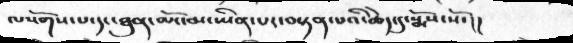ལསོགས་པ་དང་ཐུན་མོང་མ་ཡིན་པར་བསྟན་པའི་ཆེད་དུ་སྨོས་སོ་།།
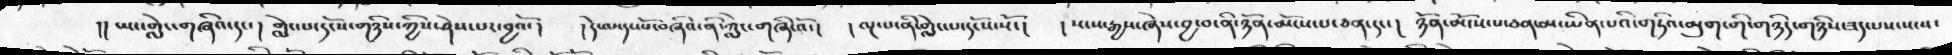།། ཡང་གླེང་གཞིའ་དང་།  གླེང་པ་དངོས་གཉིས་ཀྱིས་ཤེས་པར་བྱའོ་།   །དེ་ལ་དང་པོ་བཞིའ་ནི་ཀླེང་གཞི་འོ་།   ། ལྔ་པ་ནི་གླེང་པ་དངོས་སོ་།   ། སངས་རྒྱས་ཞེས་བྱ་བ་ནི་ཉོན་མོངས་པ་ཅན་དང་།  ཉོན་མོངས་པ་ཅན་མ་ཡིན་པའི་གཏིའ་མུག་གི་གཉིད་གཉིས་ཟད་པས་སངས་
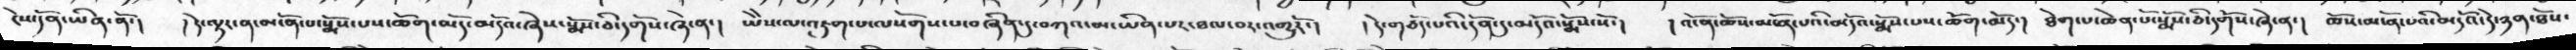ངེས་དོན་ཡིན་ནོ་།  །དེ་ལྟར་ན་མངོན་པ་སྨོས་པས་ཆོག་མོད་མདོའ་ཞེས་སྨོས་ཅི་དགོས་ཞེ་ན་།   ཡཻས་ལ་འཇུག་པ་ལསོགས་པ་བཞིན་དུ་བཀའ་མ་ཡིན་པར་ཐལ་བར་འགྱུརོ་།  །དེ་གཅོད་པའི་དོན་དུ་མདོའ་སྨོས་སོ་།  །འོ་ན་ཆོས་མངོན་པའི་མདོའ་སྨོས་པས་ཆོག་མོད་།  ཐེག་པ་ཆེན་པོ་སྨོས་ཅི་དགོས་ཞེ་ན་།  ཆོས་མངོན་པའི་མདོའ་དེ་ཉན་ཐོས་
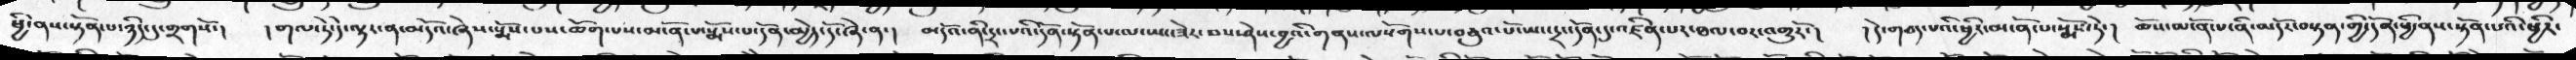ཕྱི་ནས་སྟོན་པ་ཉིད་དུ་གྲགསོ་།  །གལ་ཏེ་དེ་ལྟར་ན་མདོའ་ཞེས་སྨོས་པས་ཆོག་པས་མངོན་པ་སྨོས་པ་དོན་མྱེད་དོ་ཞེ་ན་།  མདོའ་ནི་དྲང་པའི་དོན་སྟོན་པ་ལ་ཡང་ཟེར་བས་ཤེས་བྱའི་གནས་ལསོགས་པ་བཅུའ་པོ་ཡང་དྲང་དོན་དུ་འཛིན་པར་ཐལ་བར་འགྱུརོ་།  །དེ་གཅད་པའི་ཕྱིར་མངོན་་པ་སྨོས་ཏེ་།  ཆོས་མངོན་པ་ནི་མདོར་བསྟན་གྱི་དོན་ཕྱི་ནས་སྟོན་པའི་ཕྱིར་
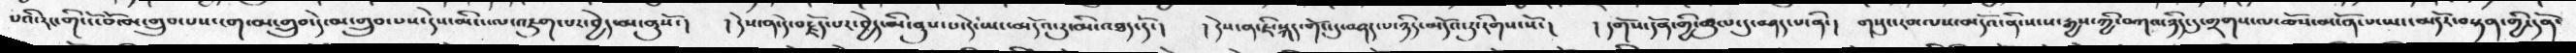པའི་རང་གི་ངོ་བོས་མ་གྲུབ་པས་ངག་མ་གྲུབ་དེ་མ་གྲུབ་པས་དེས་མིང་ལ་འཇུག་པར་བྱེད་མ་ནུསོ་།   །དེས་ན་དེ་བརྗོད་པར་བྱེད་མི་ནུས་པ་དེར་ཡང་མདོའ་རུ་མི་འཐད་དོ་།   །ེདས་ན་ཇི་སྐད་གོང་དུ་བཤད་པ་ཉིད་མདོའ་རུ་རིགས་སོ་།  །དགོས་དོན་གྱི་ཚུལ་དུ་བཤད་པ་ནི་།  །གསུང་རབ་ལས་མདོའ་ནི་སངས་རྒྱས་ཀྱི་བཀའ་ཉིད་དུ་གྲགས་ལ་ཆོས་མངོན་པ་ཡང་མདོར་བསྟན་གྱི་དོན་
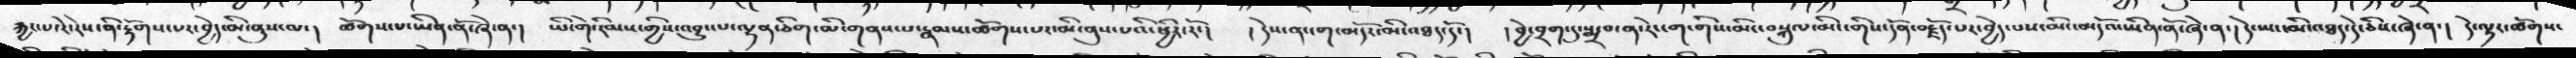རྐྱང་པ་རེ་རེས་ནི་རྟོགས་པར་བྱེད་མི་ནུས་ལ་།  ཚོགས་པ་ཡིན་ནོ་ཞེ་ན་།  ཡི་གེ་རིམས་གྱིས་འབྱུང་པ་ལྷན་ཅིག་མི་གནས་པ་རྣམས་ཚོགས་པར་མི་ནུས་པའི་ཕྱིར་རོ་།   ། དེས་ན་ངག་མདོར་མི་འཐད་དོ་།   །བྱེ་བྲག་དུ་སྨྲ་བ་ན་རེ་ངག་གིས་མིང་བསྐུལ་མིང་གིས་དོན་བརྗོད་པར་བྱེད་པས་མིང་མདོའ་ཡིན་ནོ་ཞེ་ན་།  དེ་ཡང་མི་འཐད་དེ་ཅིས་ཞེ་ན་།  དེ་ལྟར་ཚོགས་
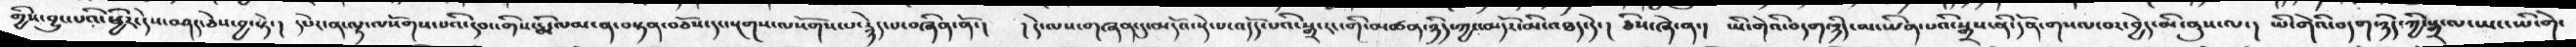གྱིས་བྱུང་པའི་ཕྱིར་དེས་བཤད་ཅེས་བྱ་སྟེ་།  དཔེར་ན་ལྟ་ལསོགས་པའི་དབང་གིས་རྨི་ལམ་ན་བསྟན་བཅོས་དང་སྔགས་ལསོགས་པ་རྙེད་པ་བཞིན་ནོ་།  །དེ་ལས་གཞན་དུ་མདོའ་སྡེ་པ་འདོད་པའི་སྒྲ་རང་གི་མཚན་ཉིད་ཀྱང་མདོར་མི་འཐད་དོ་།  ཅིས་ཞེ་ན་།  ཡི་གེའི་བདག་ཉིད་མ་ཡིན་པའི་སྒྲསནི་དོན་གསལ་བར་བྱེད་མི་ནུས་ལ་།  ཡི་གེའི་བདག་ཉིད་ཀྱི་སྒྲ་ལ་ཡང་ཡི་གེ་
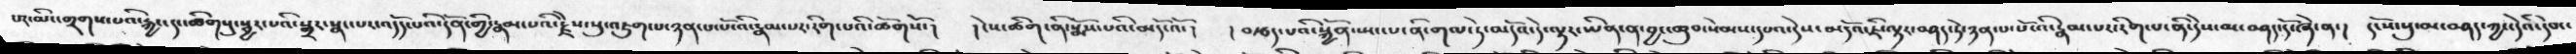པར་མིང་གྲགས་པའི་རྐྱང་དང་ཚིགསུ་སྦྱར་པའི་སྒྲར་སྣང་པར་འདོད་པའི་དོན་གྱི་རྣམ་པའི་རྗེས་སུ་འཇུག་པ་ཉན་པ་པོ་འི་རྣམ་པར་རིག་པའི་ཚོགསོ་།   །ངེས་ཚིག་ནི་སྨོས་པའི་མདོ་འོ་།   ། བརྩད་པའི་སྐྱོན་སྤང་པ་ནི་གལ་ཏེ་མདོའ་དེ་ལྟར་ཡིན་ན་བྱང་ཆུབ་སེམས་དཔའ་དེས་མདོའ་ཇི་ལྟར་བཤད་ཏེ་ཉན་པ་པོ་འི་རྣམ་པར་རིག་པ་ནི་དེས་མ་བཤད་དོ་ཞེ་ན་།  དངོས་སུ་མ་བཤད་ཀྱང་དེའི་དབང་
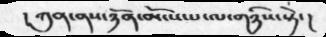། ཀུན་ནས་ཉོན་མོངས་པ་ལ་གཉིས་སྟེ་།
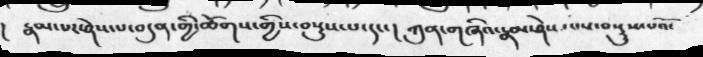། རྣམ་པར་ཤེས་པ་བདུན་གྱི་ཚོགས་གྱིས་བསྡུས་པ་དང་།  ཀུན་གཞིའ་རྣམ་ཤེས་པས་བསྡུས་པའོ་
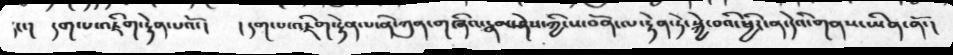དང་།  དག་པ་འཇིག་རྟེན་པའོ་།   ། དག་པ་འཇིག་རྟེན་པ་ནི་ཀུན་གཞིའ་རྣམ་ཤེས་ཀྱི་ས་བོན་རྟེན་ཏེ་སྐྱེ་བའི་ཕྱིར་ན་དེའི་གནས་ཡིན་ནོ་།
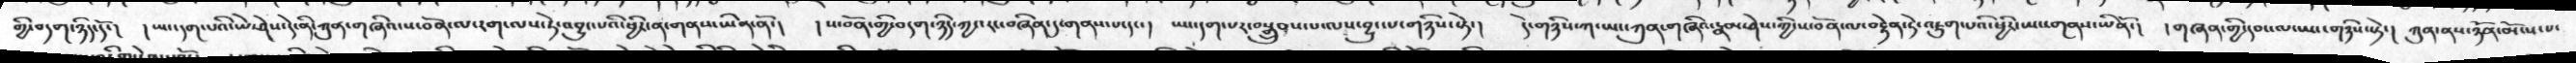གྱི་བདག་ཉིད་དོ་།  ། ཡང་དག་པའི་ཡེ་ཤེས་དེ་ནི་ཀུན་གཞིའ་ས་བོན་ལ་རག་ལས་ཏེ་འབྱུང་པའི་ཕྱིར་ན་གནས་པ་ཡིན་ནོ་།   །ས་བོན་གྱི་བདག་ཉིད་ཀྱང་རང་བཞིན་དུ་གནས་པ་དང་།  ཡང་དག་པར་བསྒྲུབས་པ་ལས་བྱུང་པ་གཉིས་སྟེ་།  དེ་གཉིས་ཀ་ཡང་ཀུན་གཞིའ་རྣམ་ཤེས་ཀྱི་ས་བོན་ལ་བརྟེན་ཏེ་འཇུག་པའི་ཕྱིར་ཡང་གནས་ཡིནོ་།  །གཞན་གྱི་དབང་ལ་ཡང་གཉིས་སྟེ་།  ཀུན་ནས་ཉོན་མོངས་པ་
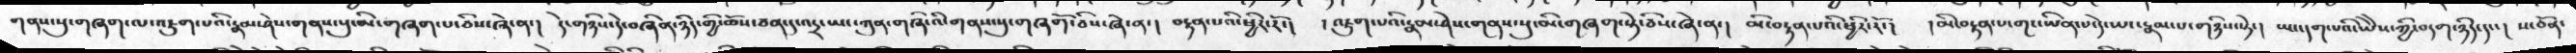གནས་སུ་གཞག་ལ་འཇུག་པའི་རྣམ་ཤེས་གནས་སུ་མི་གཞག་པ་ཅིས་ཞེ་ན་།  དེ་གཉིས་དེ་བཞིན་ཉིད་གྱི་ཆོས་ཅན་དུ་འདྲ་ཡང་ཀུན་གཞི་འི་གནས་སུ་གཞགོ་ཅིས་ཞེ་ན་།  བརྟན་པའི་ཕྱིར་རོ་།  །འཇུག་པའི་རྣམ་ཤེས་གནས་སུ་མི་གཞག་སྟེ་ཅིས་ཞེ་ན་།  མི་བརྟན་པའི་ཕྱིར་རོ་།  ། མི་བརྟན་པ་གང་ཡིན་པ་དེ་ཡང་རྣམ་པ་གཉིས་སྟེ་།  ཡང་དག་པའི་ཡཻས་ཀྱི་བདག་ཉིད་དང་།  ས་བོན་
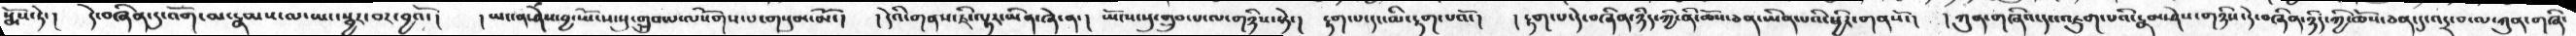སྨོས་ཏེ་།  དེ་བཞིན་དུ་འོག་མ་རྣམས་ལ་ཡང་སྦྱར་བར་བྱའོ་།  །ཡང་ན་ཤེས་བྱ་ཡོངས་སུ་གྲུབ་པ་ལསོགས་པ་གསུམ་མོ་།  །དེའི་གནས་ཇི་ལྟར་ཡིན་ཞེ་ན་།  ཡོངས་སུ་གྲུབ་པ་ལ་གཉིས་སྟེ་།  རྟག་པ་དང་མི་རྟག་པའོ་།  །རྟག་པ་དེ་བཞིན་ཉིད་ཀྱི་ནི་ཆོས་ཅན་ཡིན་པའི་ཕྱིར་གནསོ་།  །ཀུན་གཞིའ་དང་འཇུག་པའི་རྣམ་ཤེས་གཉིས་དེ་བཞིན་ཉིད་གྱི་ཆོས་ཅན་དུ་འདྲ་བ་ལ་ཀུན་གཞི་
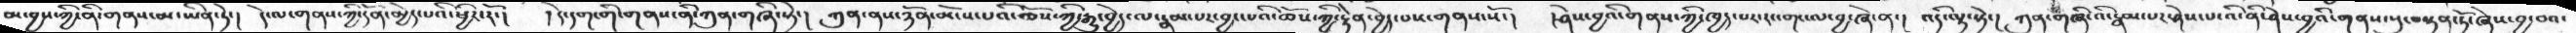མ་བྱས་ཀྱི་ནི་གནས་མ་ཡིན་ཏེ་།  དེ་ལ་གནས་ཀྱི་དོན་མྱེད་པའི་ཕྱིར་རོ་།  །དེ་དག་གི་གནས་ནི་ཀུན་གཞི་སྟེ་།  ཀུན་ནས་ཉོན་མོངས་པའི་ཆོས་ཀྱི་རྒྱུ་བྱེད་ལ་རྣམ་པར་བྱང་པའི་ཆོས་ཀྱི་རྟེན་བྱེད་པས་གནས་སོ་།  །ཤེས་བྱའི་གནས་ཀྱི་ཁྱད་པར་རང་གང་ལ་བྱ་ཞེ་ན་།  འདི་ལྟ་སྟེ་།  ཀུན་གཞི་འི་རྣམ་པར་ཤེས་པ་འི་ནི་ཤེས་བྱའི་གནས་སུ་བསྟན་ཏོ་ཞེས་བྱ་བའ་
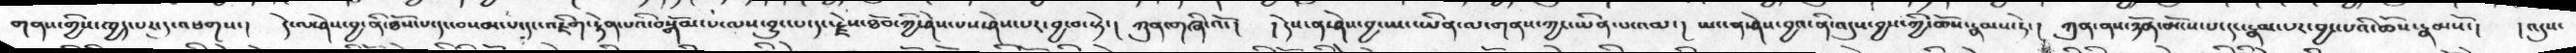གནས་གྱིས་ཁྱད་པར་དུ་འཕགས་།  དེ་ལ་ཤེས་བྱ་ནི་ཐོས་པ་དང་བསམ་པ་དང་འཇིག་རྟེན་པའི་བསྒོམ་པ་ལས་བྱུང་པ་དང་རྗེས་ཐོབ་ཀྱི་ཤེས་པས་ཤེས་པར་བྱ་བ་སྟེ་།  ཀུན་གཞི་འོ་།  ། དེས་ན་ཤེས་བྱ་ཡང་ཡིན་ལ་གནས་ཀྱང་ཡིན་པ་འམ་།  ཡང་ན་ཤེས་བྱའ་ནི་འདུས་བྱས་ཀྱི་ཆོས་རྣམས་ཏེ་།  ཀུན་ནས་ཉོན་མོངས་པ་དང་རྣམ་པར་བྱང་པའི་ཆོས་རྣམསོ་།  །འདུས་
